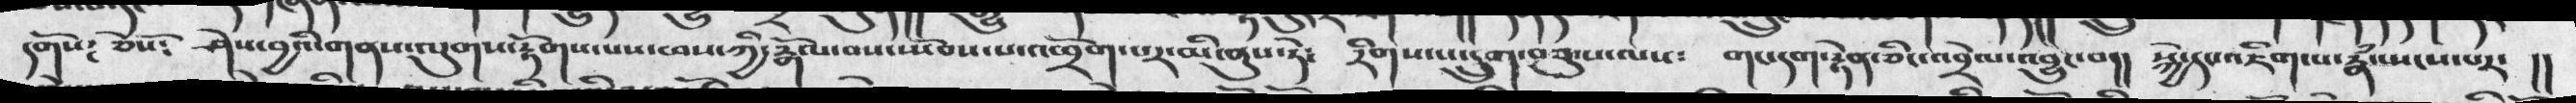དགོས༴ ཅེསོ༴  ཤེས་བྱའི་གནས་ལུགས་རྟོགས་པས་ཕས་ཀྱི་རྒོལ་བས་སྤོབས་པ་འཕྲོག་པར་མི་ནུས་ཏེ༴     རིིགས་པ་དྲུག་བཅུ་པ་ལས༴  གང་དག་རྟེན་ཅིང་འབྲེལ་འབྱུང་བ།།   སྐྱེ་དང་འཇིག་པ་རྣཾ་སྤངས་པར་།།
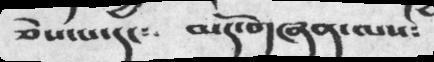ཅེས་པ་དང༴     མདོ་གཞན་ལས༴
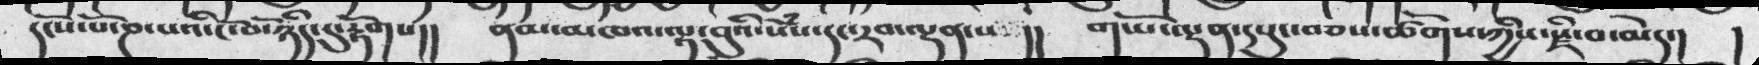དངོས་པོ་ཎ་པའི་ངོ་བོ་ཉིད་དུ་རྟོགས།།  ནམ་མཁའ་ལྟ་བུའི་སེཾས་དང་རབ་ལྡན་པ །།  གཡོ་ལྡན་དཔུང་བཅས་ཚོགས་ཀྱིས་སཛི་བ་མེད་། །
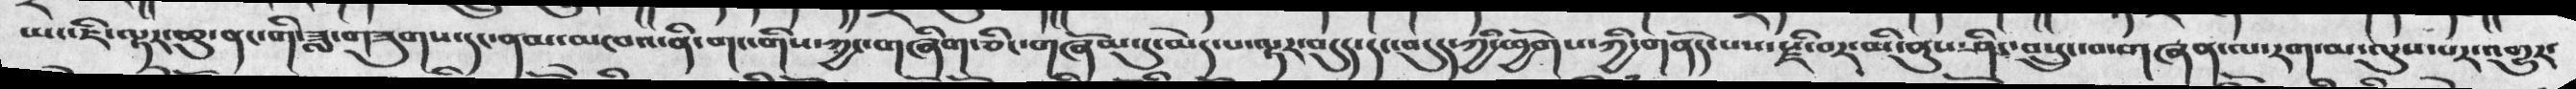ཡང་ཇི་ལྟར་ཆུ་ནང་གི་ཟླ་གཟུགས་དང་ནམ་མཁའ་ནི་གང་གིས་ཀྱང་གཞིག་ཅིང་གཞོམ་དུ་མེད་པ་ལྟར་བདུད་དང་བདུད་ཀྱི་ཕྱོགས་ཀྱི་གནོད་པས་སྫི་བར་མི་ནུས་ཤིང་བསྲུང་བ་གཞན་ལ་རག་མ་ལུས་པར་འགྱུར་
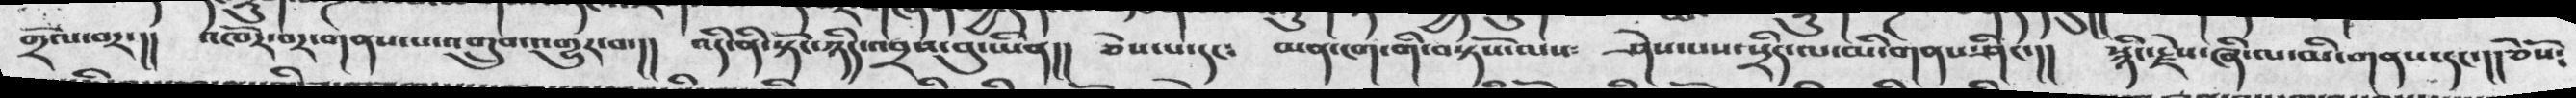གྲོལ་བར་།། འཁོར་བར་གནས་པ་འགྲུབ་འགྱུར་བ་།། འདི་ནི་སྟོང་ཉིད་འབྲས་བུ་ཡིན།། ཅེས་པ་དང༴ མན་ངག་གི་བསྟོས་ལས༴ ཤེས་པས་སྲིད་ལ་མི་གནས་ཤིང་།། སྙིང་རྗེས་ཞི་ལ་མི་གནས་དང་།།ཅེསོ༴
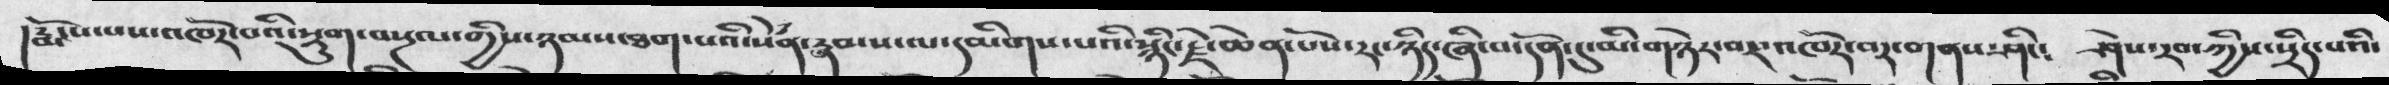རྨོངས་པས་འཁོར་བའི་སྡུག་བསྔལ་གྱིས་ཉམས་ཐག་པའི་སེྃན་རྣམས་ལ་དམིགས་པའི་སྙིང་རྗེ་ཆེན་པོས་རང་ཉིད་ཞི་བ་དོན་དུ་མི་གཉེར་བར་འཁོར་བར་གནས་ཤིང༴   ཤེས་རབ་ཀྱིས་སྲིད་པའི་
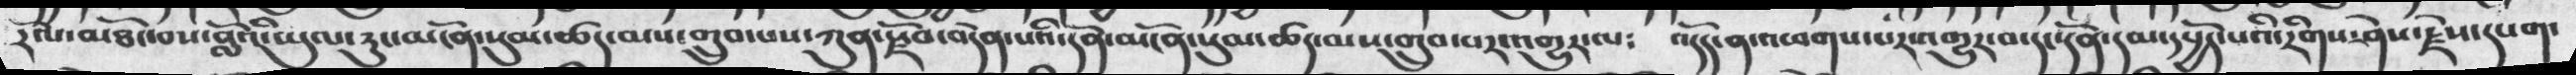རོལ་མཐོང་བས་བློའི་ཡུལ་རུང་མངོན་སུམ་ཚད་མས་གྲུབ་པས་ཀུན་སྗོབ་བདེན་པའི་དོན་མངོན་སུམ་ཚད་མས་གྲུབ་པར་འགྱུར་ལ༴  འདོད་ན་འཕགས་པར་འགྱུར་བ་དང་དོན་དམ་དཔྱོད་པའི་རིགས་ཤེས་རྗེས་དཔག་
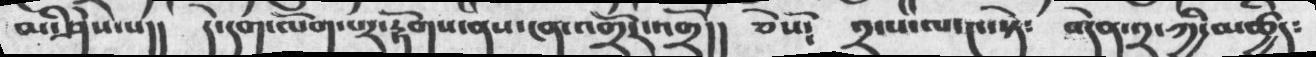མི་ཤེས་པ།།   དེ་དག་ལོག་པར་རྟོགས་ནས་ངན་འགྲོར་འགྲོ།།   ཅེསོ༴   ༢་པ་ལ་༤་སྟེ༴   བདེན་༢་ཀྱི་མཚྱིད༴
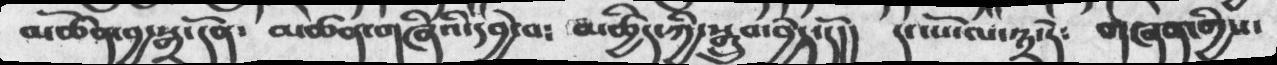མཚོན་བྱ་སྒྲ་དོན༴   མཚན་གཞིའི་དབྱེ་བ༴  མཚྱིད་ཀྱི་སྒྲུབ་བྱེད་དོ།།   དང་པོ་ལ་༣་ཏེ༴    གཞན་གྱིས་
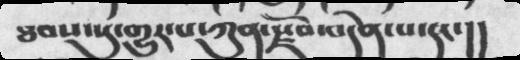ཐབས་སུ་གྱུར་པ་ཀུན་སྗོབ་བདེན་པ་དང་།།
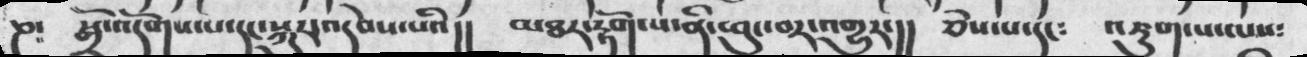ཎ༴   སྒྲོ་འདོགས་པ་དང་སྐུར་འདེབས་པའི།།   མཐར་རྟོག་པ་ནི་ཕུང་བར་འགྱུར་།།    ཅེས་པ་དང༴    འཇུག་པ་ལས༴
